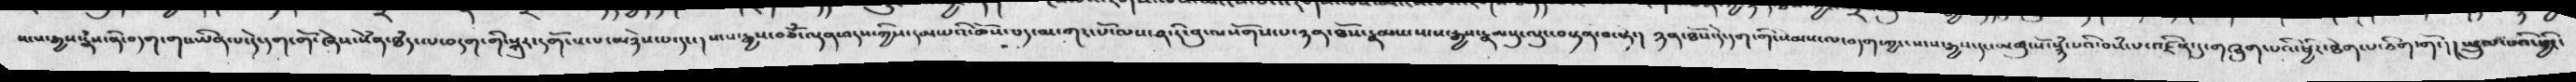སངས་རྒྱས་རྣྃས་ནི་བདག་གང་ཡིན་པ་དེ་དག་གོ་ཞེས་སེཾན་ཐཾད་ལ་བདག་གི་སྐུར་དགོངས་པ་མཉེས་པ་དང་།  སངས་རྒྱས་བཅོཾ་ལྡན་འདས་ཀྱིས་དམ་པའི་ཆོས་པད་མ་ཀར་པོ་ལས་ཤ་རི་བུ་ལསོགས་པ་ཉན་ཐོས་རྣམས་སངས་རྒྱས་རྣམསུ་ལུང་བསྟན་བ་སྟེ་།   ཉན་ཐོས་དེ་དག་གི་སེམས་ལ་བདག་ཀྱང་སངས་རྒྱས་དང་མཚུངསོ་སྙཾ་པའི་བསཾ་པ་འཛིན་དུ་གཞུག་པའི་ཕྱིར་ཐེག་པ་ཅིག་གོ་།   སྤྲུལ་པའི་ཕྱིར་
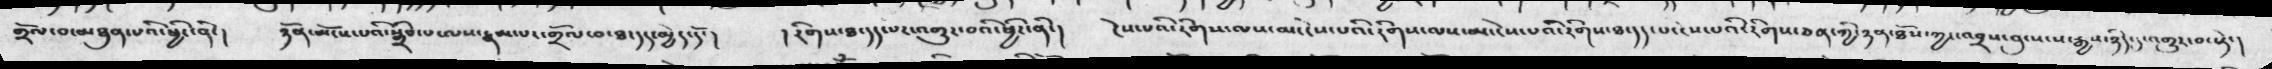གྲོལ་བ་མཐུན་པའི་ཕྱིར་ནོ་།    ཉོན་མོངས་པའི་སྒྲིབ་པ་ལས་རྣམ་པར་གྲོལ་བ་ཐ་དད་མྱེད་དོ་།  ། རིགས་ཐ་དད་པར་འགྱུར་བའི་ཕྱིར་ནི་།  ངེས་པའི་རིགས་ལས་མ་ངེས་པའི་རིགས་ལས་མ་ངེས་པའི་རིགས་ཐ་དད་པ་ངེས་པའི་རིགས་ཅན་གྱི་ཉན་ཐོས་ཀྱང་འབྲས་བུ་སངས་རྒྱས་ཉིད་དུ་འགྱུར་བ་སྟེ་།
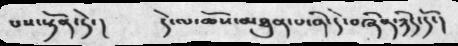པས་སྟོན་ཏེ་།  དེ་ལ་ཆོས་མཐུན་པ་ནི་དེ་བཞིན་ཉིད་དོ་།
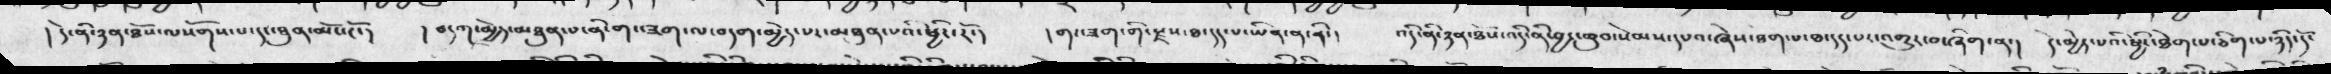། དེ་ནི་ཉན་ཐོས་ལསོགས་པ་དང་ཐུན་མོང་ངོ་།  ། བདག་མྱེད་མཐུན་པ་ནི་གང་ཟག་ལ་བདག་མྱེད་པར་མཐུན་པའི་ཕྱིར་རོ་།   ། གང་ཟག་གི་རྫས་ཐ་དད་པ་ཡིན་ན་ནི་།  འདི་ནི་ཉན་ཐོས་འདི་ནི་བྱང་ཆུབ་སེམས་དཔའ་ཞེས་ཐག་པ་ཐ་དད་པར་འགྱུར་བ་ཞིག་ན་།  དེ་མྱེད་པའི་ཕྱིར་ཐེག་པ་ཅིག་པ་ཉིད་དོ་
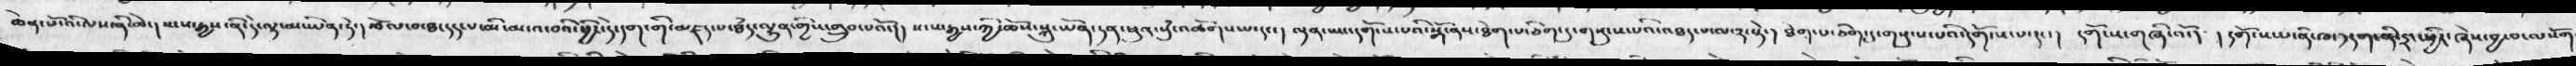ཆེན་པོ་འི་ལས་ནི་ཆེ་།  སངས་རྒྱས་ནི་དེ་ལྟ་མ་ཡིན་ཏེ་།  རྩོལ་བ་ཐ་དད་པ་མི་མངའ་བའི་ཕྱིར་དེ་དག་གི་མཛད་པ་ཐཾད་ལྷུན་གྱིས་གྲུབ་པའོ་།།    སངས་རྒྱས་ཀྱི་ཆོས་སྐུ་ཡོན་ཏན་ཕུན་སུཾ་འཚོགས་པ་དང་།     ལྡན་ཡང་དགོས་པའི་སྒོ་ནས་ཐེག་པ་ཅིག་དུ་གསུངས་པའི་འཐད་པ་ལ་༢་སྟེ་།   ཐེག་པ་ཅིག་དུ་གསུམ་པའི་དགོངས་པ་དང་།  དགོངས་གཞི་འོ་།   ། དགོངས་པ་ནི་ཁ་༡དག་ནི་དྲང་ཕྱིར་ཞེས་བྱ་བ་ལསོགས་
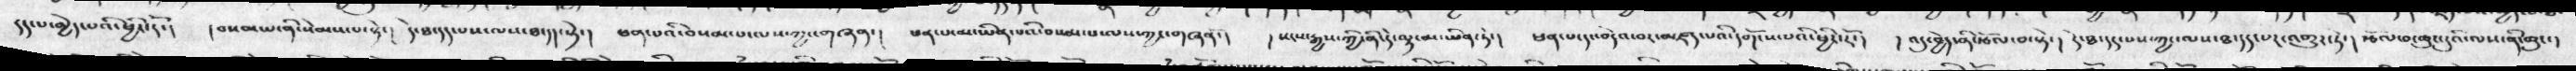དད་པ་མྱེད་པའི་ཕྱིར་།   ། བསམ་པ་ནི་སེམས་པ་སྟེ་།   དེ་ཐ་དད་པས་ལས་ཐ་དད་སྟེ་།   ཕན་པའི་བསམ་པ་ལས་ཀྱང་གཞན་།  ཕན་པ་མ་ཡིན་པའི་བསམ་པ་ལས་ཀྱང་གཞན་།  ། སངས་རྒྱས་ཀྱི་ནི་དེ་ལྟ་མ་ཡིན་ཏེ་།  ཕན་པ་དང་བདེའ་བར་མཛད་པའི་དགོངས་པའི་ཕྱིར་རོ་།   ། འདུ་བྱེད་ནི་རྩོལ་བ་སྟེ་།  དེ་ཐ་དད་པས་ཀྱང་ལས་ཐ་དད་པར་འགྱུར་ཏེ་།   རྩོལ་བ་ཆུང་ངུའི་ལས་ནི་ཆུང་།
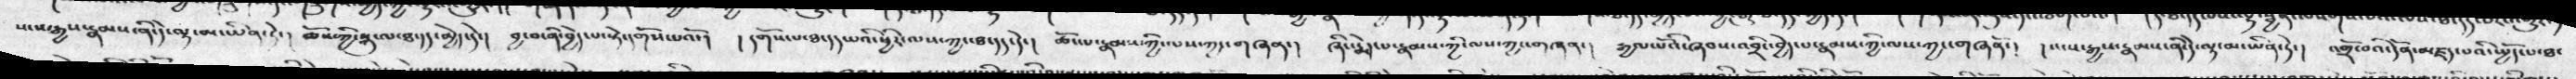སངས་རྒྱས་རྣམས་ནི་དེ་ལྟ་མ་ཡིན་ཏེ་།  ཆོས་ཀྱི་སྐུ་ལ་ཐ་དད་མྱེད་དེ་།  བྱ་བ་ནི་བྱེད་པ་སྟེ་དགོས་པའོ་།  ། དགོས་པ་ཐ་དད་པའི་ཕྱིར་ལས་ཐ་དད་དེ་།  ཆོད་པ་རྣམས་ཀྱི་ལས་ཀྱང་གཞན་།  ཞིང་རྨེད་པ་རྣམས་ཀྱི་ལས་ཀྱང་གཞན་།  རྒྱལ་པོ་ཞབས་འབྲིང་བྱེད་པ་རྣམས་ཀྱི་ལས་ཀྱང་གཞནོ་།   སངས་རྒྱས་རྣམས་ནི་དེ་ལྟ་མ་ཡིན་ཏེ་།  འགྲོ་བའི་དོན་མཛད་པའི་སྤྱོད་པ་ཐ་
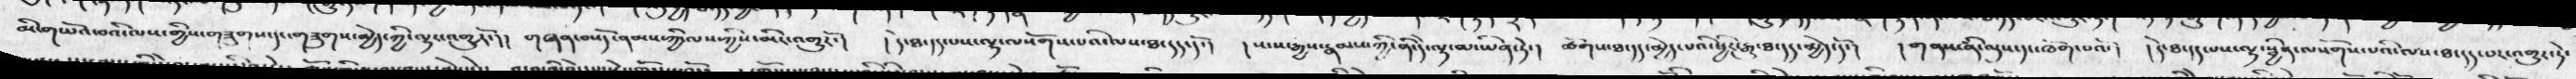མི་གཡོའ་བའི་ལས་གྱིས་གཟུགས་དང་གཟུགས་མྱེད་ཀྱི་ལྷར་འགྱུརོ་།།  གཞན་བསོད་ནམས་ཀྱི་ལས་ཀྱིས་མིང་འགྱུརོ་།  ། དེ་ཐ་དད་པས་ལྷ་ལསོགས་པའི་ལས་ཐ་དད་དོ་།  ། སངས་རྒྱས་རྣམས་ཀྱི་ནི་དེ་ལྟ་མ་ཡིན་ཏེ་།  ཚོགས་ཐ་དད་མྱེད་པའི་ཕྱིར་རྒྱུ་ཐ་དད་མྱེད་དོ་།   ། གནས་ནི་ལུས་དང་ཁོག་པའོ་།  ། དེ་ཐ་དད་པས་ལྷ་སྦྱིན་ལསོགས་པའི་ལས་ཐ་དད་པར་འགྱུར་རེ་།
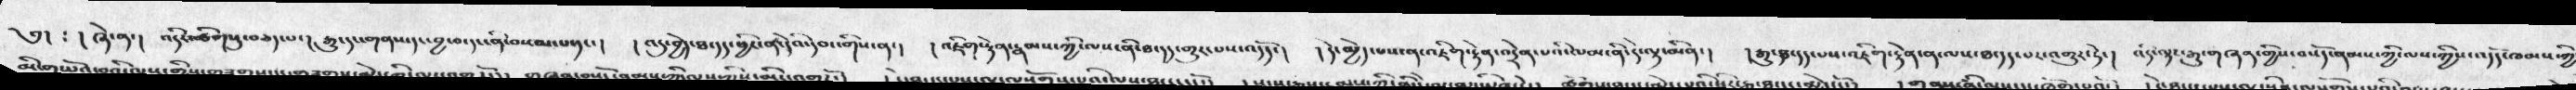༄།  ༴ ། ཞེ་ན་།  འདི་ཚིགསུ་བཅད་པ་།   རྒྱུ་དང་གནས་དང་བྱ་བ་དང་ནི་བསམ་པ་དང་།  ། འདུ་བྱེད་ཐ་དད་ཕྱིར་ན་དེའི་དབང་གིས་ན་།   ། འཇིག་རྟེན་རྣམས་ཀྱི་ལས་ནི་ཐ་དད་གྱུར་པས་འདོད་།  ། དེ་མྱེད་པས་ན་འཇིག་རྟེན་འདྲེན་པའི་ལམ་ནི་དེ་ལྟ་མིན་།   ། རྒྱུ་ཐ་དད་པས་འཇིག་རྟེན་ན་ལས་ཐ་དད་པར་འགྱུར་ཏེ་།   འདི་ལྟར་རྒྱུ་གཞན་གྱིས་བསོད་ནམས་ཀྱི་ལས་ཀྱིས་འདོད་ཁམས་ཀྱི་
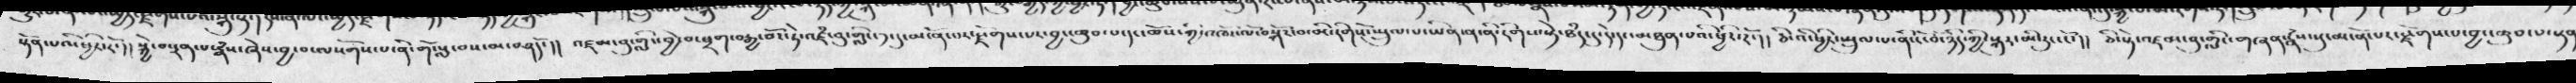སྟོན་པའི་ཕྱིར་རོ་།།  སྐྱེ་བ་དྲན་པ་རྣཾས་ཞེས་བྱ་བ་ལསོགས་པ་ནི་གོ་སླ་བས་མ་བཤདོ་།།  འཛམ་བུ་གླིང་བྱེ་བ་ཕྲག་བརྒྱ་བོར་ཏེ་འཛཾ་བུ་གླིང་༡་དང་དུ་མངོན་པར་རྫོགས་པར་བྱ་ཆུབ་པ་དང་ཆོས་ཀྱི་འཁོར་ལོ་བསྐོར་བ་མི་རིགསོ་སྤྲུལ་པ་ཡིན་ན་ནི་རིགས་སྟེ་ཐཾད་དུ་དེ་དང་མཐུན་པའི་ཕྱིར་རོ་།།  ཅིའི་ཕྱིར་སྤྲུལ་པ་ནི་ངོ་བོ་ཉིད་ཀྱི་སྐུར་མི་རུང་ངོ་།།  ཅི་སྟེ་འཛམ་བུ་གླིང་གཞན་རྣཾས་སུ་མངོན་པར་རྫོགས་པ་བྱང་ཆུབ་པ་སྟན
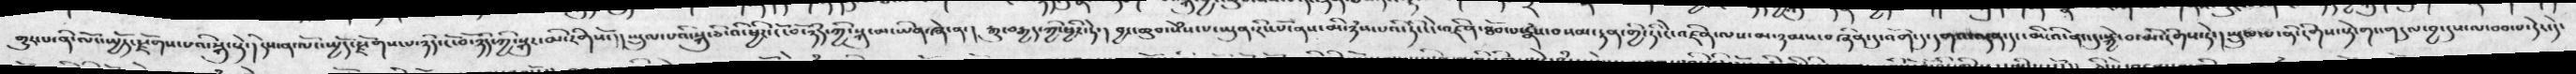གྱུར་པ་ནི་ལོང་སྤྱོད་རྫོགས་པའི་སྐུ་སྟེ་།  དེས་ན་ལོང་སྤྱོད་རྫོགས་པ་ཉིད་ངོ་བོ་ཉིད་ཀྱི་སྐུར་མི་རིགསོ་།། སྤྲུལ་པའི་སྐུ་ཅི་འི་ཕྱིར་ངོ་བོ་ཉིད་ཀྱི་སྐུ་མ་ཡིན་ཞེ་ན་།  རྒྱུ་བརྒྱད་ཀྱི་ཕྱིར་ཏེ་།  བྱང་ཆུབ་སེཾས་པ་ཡུན་རིང་པོ་ནས་མི་ཉཾས་པའི་ཏིང་ངེ་འཛིན་ཐོབ་པ་རྣཾས་བསམ་རྟན་གྱི་ཏིང་ངེ་འཛིན་ལས་མ་ཉམས་བཞིན་དུ་འོག་དུ་དགའ་ལྡན་དང་མི་འི་ནང་དུ་སྐྱེ་བ་མི་རིགས་ཏེ་།  སྤྲུལ་པ་ནི་རིགས་སྟེ་གང་གདུལ་བྱ་དུས་ལ་བབ་པ་དེང་དེ་
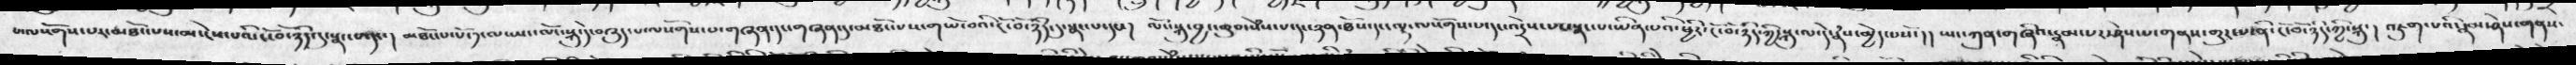པ་ལསོགས་པར་མཐོང་པས་མ་ངེས་པའི་ངོ་བོ་ཉིད་དུ་སྣང་པ་དང་།  མཐོང་པ་པོ་༡་ལ་ཡང་ལོང་སྐུ་དེ་བཞུད་པ་ལསོགས་པ་གཞན་དང་གཞན་དུ་མཐོང་པས་གཡོ་བའི་ངོ་བོ་ཉིད་དུ་སྣང་པ་དང་།  ལོང་སྐུ་བྱང་ཆུབ་སེཾས་པ་དང་ཉན་ཐོས་དང་ལྷ་ལསོགས་པ་དང་འདྲེས་པས་སྣང་པ་ཡིན་པའི་ཕྱིར་ངོ་བོ་ཉིད་ཀྱི་སྐུ་ལ་དེ་རྣཾས་མྱེད་པསོ་།།   ཡང་ཀུན་གཞིའ་རྣམ་པར་ཤེས་པ་གནས་གྱུར་པ་ནི་ངོ་བོ་ཉིད་ཀྱི་སྐུ་།  འཇུག་པའི་རྣམ་ཤེས་གནས་
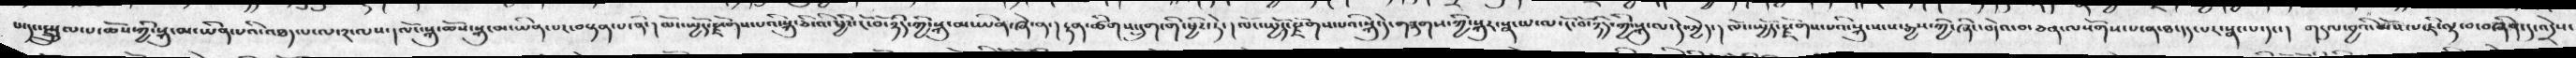པ་དང་སྤྲུལ་པ་ཆོས་ཀྱི་སྐུ་མ་ཡིན་པའི་འཐད་པ་ལ་༢་ལས་།ལོང་སྐུ་མ་ཡིན་པར་བསྟན་པ་ནི་།  ལོང་སྤྱོད་རྫོགས་པའི་སྐུ་ཅིའི་ཕྱིར་ངོ་བོ་ཉིད་ཀྱི་སྐུ་མ་ཡིན་ཞེ་ན་།  རྟན་ཚིགས་དྲུག་གི་ཕྱིར་ཏེ་།  ལོངས་སྤྱོད་རྫོགས་པའི་སྐུ་དེ་གཟུགས་ཀྱི་སྐུར་སྣང་པ་ལ་ངོ་བོ་ཉིད་ཀྱི་སྐུ་ལ་དེ་མྱེད་།  ལོངས་སྤྱོད་རྫོགས་པའི་སྐུ་སངས་རྒྱས་ཀྱི་ཞིང་བདེའ་བ་ཅན་ལསོགས་པ་ན་ཐ་དད་པར་སྣང་པ་དང་།  གདུལ་བྱའི་མོས་པ་ཇི་ལྟ་བ་བཞིན་དུ་འདྲེས་
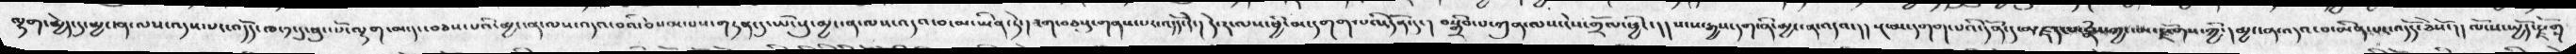ལྷག་མྱེད་དུ་མྱ་ངན་ལས་འདས་པར་འདོད་ཁ་༡་དུ་ཕུང་པོ་ལྷག་མ་དང་བཅས་པའི་མྱ་ངན་ལས་འདའ་བའི་བསམ་པས་གཏན་དུ་ཡོངསུ་མྱ་ངན་ལས་འདུའ་བ་མ་ཡིན་ཏེ་། ཟག་བཅསུ་གནས་པར་འདོད་དེ་།  དེ་རངལས་ཕྱི་མ་དགག་པའི་དོན་དང་།  བསྒྲིབ་པ་ཀུན་ལས་ངེས་གྲོལ་ཕྱིར་།།  སངས་རྒྱས་དག་ནི་མྱ་ངན་འདའ་།།   སྔ་མ་དགག་པའི་དོན་དུ་མཛད་པ་རྣཾས་ཀྱང་མ་རྫོགས་ཀྱི་།མྱ་ངན་འདའ་བ་མིན་པར་འདོད་ཅེསོ་།།  ལོངས་སྤྱོད་རྫོག
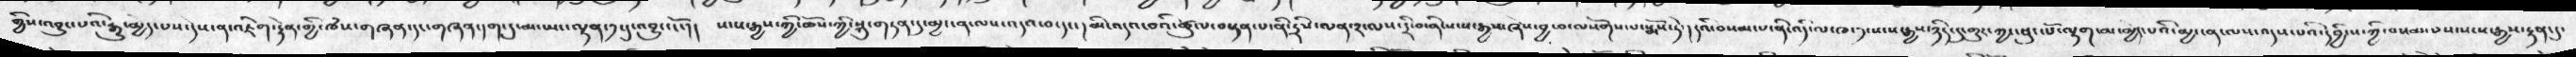གྱིས་འབྱུང་པའི་རྒྱུ་མྱེད་པས་དེས་ན་འཇིག་རྟེན་གྱི་ཁཾས་གཞན་དང་གཞན་དག་དུ་མ་ཡང་ལྡན་༡་དུ་འབྱུང་ངོ་།།  སངས་རྒྱས་ཀྱི་ཆོས་ཀྱི་སྐུ་གཏན་དུ་མྱ་ངན་ལས་འདའ་བ་དང་།  མི་འདའ་བའི་ཚུལ་བསྟན་པ་ནི་དྲིས་ལན་༢་ལས་དྲི་བ་ནི་སངས་རྒྱས་ཞེས་བྱ་བ་ལསོགས་པ་སྨོས་ཏེ་།  དའི་བསམ་པ་ནི་འདི་ལ་ཁ་༡་སངས་རྒྱས་ཉིད་དུ་གྱུར་ཀྱང་ཕུང་པོ་ལྷག་མ་མྱེད་པའི་མྱ་ངན་ལས་འདས་པའི་དབྱིངས་ཀྱི་བསམ་བས་སངས་རྒྱས་རྟན་དུ་
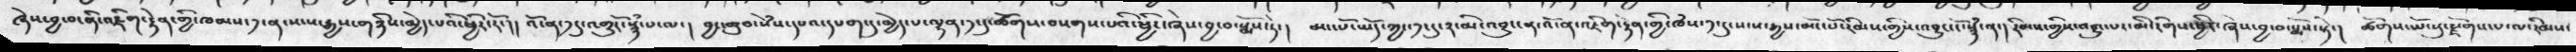ཞེས་བྱ་བ་ནི་འཇིག་རྟེན་གྱི་ཁམས་༡་ན་སངས་རྒྱས་གཉིས་མྱེད་པའི་ཕྱིར་རོ་།   འོ་ན་༡དུ་འགྱུརོ་སྙཾ་པ་ལ་།  བྱང་ཆུབ་སེམས་དཔག་དུ་མྱེད་པ་ལྷན་༡་དུ་ཚོགས་བསགས་པའི་ཕྱིར་ཞེས་བྱ་བ་སྨོས་ཏེ་།  མང་པོ་ཡོད་ཀྱང་༡་དུ་༢་མི་འབྱུང་ན་འོ་ན་འཇིག་རྟེན་གྱི་ཁཾས་༡་དུ་སངས་རྒྱས་མོང་པོ་རིམས་གྱིས་འབྱུང་ངོ་སྙཾ་ན་།  རིམས་གྱིས་འབྱུང་པར་མི་རིགས་ཕྱིར་ཞེས་བྱ་བ་སྨོས་སྟེ་།  ཚོགས་ཡོངས་སུ་རྫོགས་པ་ལ་རིམས་
